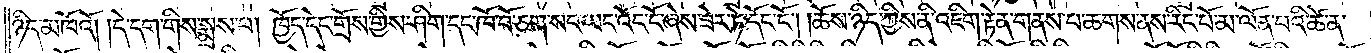ཉིད་མཁོའོ། །དེ་དག་གིས་སྨྲས་པ། ཁྱོད་དེང་གྲོས་ཀྱིས་ཤིག་དང་ཁོ་བོ་ཅག་སང་ཡང་འོང་ངོ་ཞེས་ཟེར་ཏེ་དོང་ངོ༌། །ཆོས་ཉིད་ཀྱིས་ནི་འཇིག་རྟེན་གནས་པ་ཆགས་ནས་རིང་པོ་མ་ལོན་པའི་ཚེ་ན་
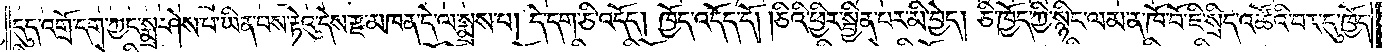དུད་འགྲོ་དག་ཀྱང་སྨྲ་ཤེས་པ་ཡིན་པས་རྟེའུ་དེས་རྫ་མཁན་དེ་ལ་སྨྲས་པ། དེ་དག་ཅི་འདོད། ཁྱོད་འདོད་དོ། །ཅིའི་ཕྱིར་སྦྱིན་པར་མི་བྱེད། ཅི་ཁྱོད་ཀྱི་སྙིང་ལམ་ན་ཁོ་བོ་ཇི་སྲིད་འཚོའི་བར་དུ་ཁྱོད་
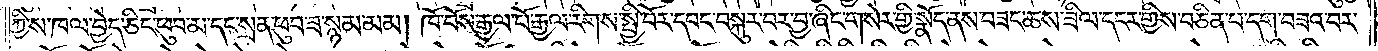ཀྱིས་ཁལ་བྱེད་ཅིང་ཕུབ་མ་དང་སྲན་ཕུབ་ཟ་སྙམ་མམ། ཁོ་བོས་རྒྱལ་པོ་རྒྱལ་རིགས་སྤྱི་བོར་དབང་བསྐུར་བར་བྱ་ཞིང་གསེར་གྱི་སྣོད་ནས་བཟང་ཆས་ཟིལ་དངར་གྱིས་བཅིན་པ་དག་བཟའ་བར་
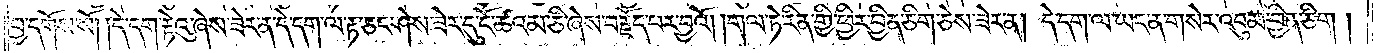བྱ་དགོས་སོ། །དེ་དག་རྟེའུ་ཞེས་ཟེར་ན་དེ་དག་ལ་རྟ་ཅང་ཤེས་ཟེར་དུ་ངོ་ཚའམ་ཅི་ཞེས་བརྗོད་པར་བྱའོ། །གལ་ཏེ་རིན་གྱི་ཕྱིར་བྱིན་ཅིག་ཅེས་ཟེར་ན། དེ་དག་ལ་ཡང་ན་གསེར་འབུམ་བྱིན་ཅིག །
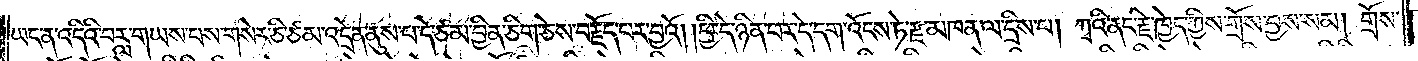ཡང་ན་འདིའི་བརླ་གཡས་པས་གསེར་ཅི་ཙམ་འདྲེན་ནུས་པ་དེ་ཙམ་བྱིན་ཅིག་ཅེས་བརྗོད་པར་བྱའོ། །ཕྱི་དེ་ཉིན་པར་དེ་དག་འོངས་ཏེ་རྫ་མཁན་ལ་དྲིས་པ། ཀྭའི་ནང་རྗེ་ཁྱེད་ཀྱིས་གྲོས་བྱས་སམ། གྲོས་
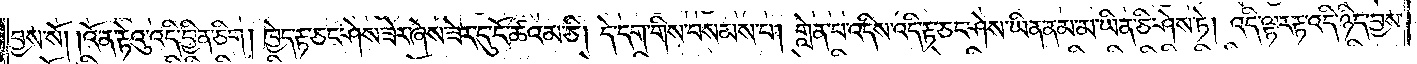བྱས་སོ། །འོ་ན་རྟེའུ་འདི་བྱིན་ཅིག །ཁྱེད་རྟ་ཅང་ཤེས་ཟེར་ཞེས་ཟེར་དུ་ངོ་ཚའམ་ཅི། དེ་དག་གིས་བསམས་པ། གླེན་པ་འདིས་འདི་རྟ་ཅང་ཤེས་ཡིན་ནམ་མ་ཡིན་ཅི་ཤེས་ཏེ། འདི་ལྟར་རྟ་འདི་ཉིད་བྱས་
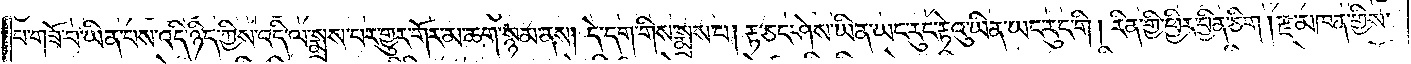པ་གཟོ་བ་ཡིན་པས་འདི་ཉིད་ཀྱིས་འདི་ལ་སྨྲས་པར་གྱུར་གོར་མ་ཆག་སྙམ་ནས། དེ་དག་གིས་སྨྲས་པ། རྟ་ཅང་ཤེས་ཡིན་ཡང་རུང་རྟེའུ་ཡིན་ཡང་རུང་གི། རིན་གྱི་ཕྱིར་བྱིན་ཅིག །རྫ་མཁན་གྱིས་
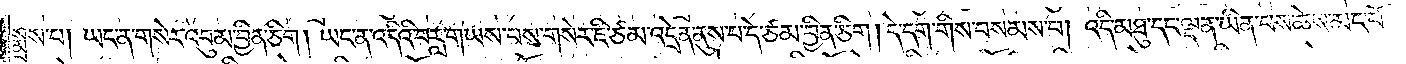སྨྲས་པ། ཡང་ན་གསེར་འབུམ་བྱིན་ཅིག །ཡང་ན་འདིའི་བརླ་གཡས་པས་གསེར་ཇི་ཙམ་འདྲེན་ནུས་པ་དེ་ཙམ་བྱིན་ཅིག །དེ་དག་གིས་བསམས་པ། འདི་མཐུ་དང་ལྡན་ཡིན་པས་ཆེས་མང་པོ་
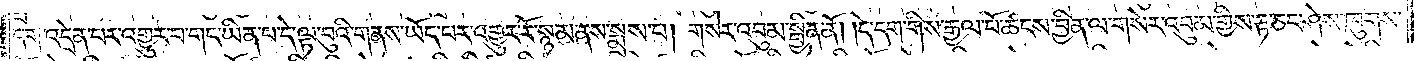དག་འདྲེན་པར་འགྱུར་པ་གང་ཡིན་པ་དེ་ལྟ་བུའི་གནས་ཡོད་པར་འགྱུར་རོ་སྙམ་ནས་སྨྲས་པ། གསེར་འབུམ་སྦྱིན་ནོ། །དེ་དག་གིས་རྒྱལ་པོ་ཚངས་བྱིན་ལ་གསེར་འབུམ་གྱིས་རྟ་ཅང་ཤེས་ཁུགས་
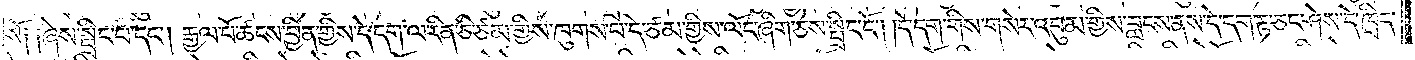སོ༑ ༑ཞེས་སྤྲིང་པ་དང༌། རྒྱལ་པོ་ཚངས་བྱིན་གྱིས་དེ་དག་ལ་རིན་ཅི་ཙམ་གྱིས་ཁུགས་པ་དེ་ཙམ་གྱིས་ལོང་ཞིག་ཅེས་སྤྲིང་ངོ༌། །དེ་དག་གིས་གསེར་འབུམ་གྱིས་བླངས་ནས་དེ་དག་རྟ་ཅང་ཤེས་དེ་ཁྲིད་
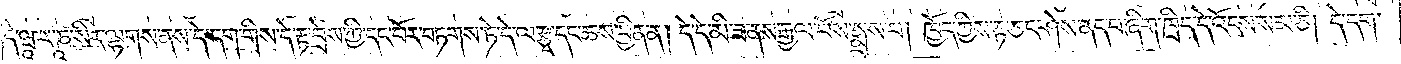དེ་ཝཱ་ར་ཎཱ་སིར་ལྷགས་ནས་དེ་དག་གིས་དེ་རྟ་བྲེས་ཀྱི་དང་པོར་བཏགས་ཏེ་དེ་ལ་རྩྭ་དང་ཆས་བྱིན་ན། དེ་དེ་མི་ཟ་ནས་རྒྱལ་པོས་སྨྲས་པ། ཁྱོད་ཀྱིས་རྟ་ཅང་ཤེས་ནད་པ་ཞིག་ཁྲིད་དེ་འོངས་སམ་ཅི། དེ་དག་
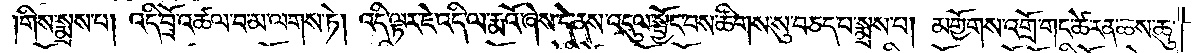གིས་སྨྲས་པ། འདི་བྲོ་འཆལ་བ་མ་ལགས་ཏེ། འདི་ལྟར་ཇེ་འདི་ལ་རྨའོ་ཞེས་དེ་ནས་འདུལ་སྦྱོང་བས་ཚིགས་སུ་བཅད་པ་སྨྲས་པ། མགྱོགས་འགྲོ་གང་ཚེ་རན་ཆས་ཆུ་
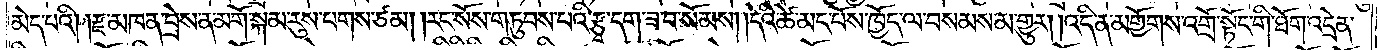མེད་པའི། །རྫ་མཁན་བྲེས་ན་མགོ་སྐམ་རུས་པགས་ཙམ། །རང་སོས་གཏུབས་པའི་རྩྭ་དག་ཟ་བ་སོམས། །དེའི་ཚེ་མང་པོས་ཁྱོད་ལ་བསམས་མ་གྱུར། །འདི་ན་མགྱོགས་འགྲོ་སྟོང་གི་ཐོགས་འདྲེན་
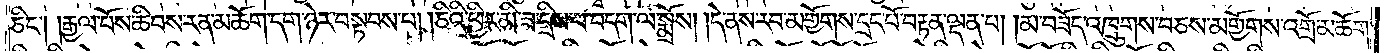ཅིང༌། །རྒྱལ་པོས་ཆིབས་རན་མཆོག་དག་ཉེར་བསྟབས་པ། །ཅིའི་ཕྱིར་མི་ཟ་དྲིས་པ་བདག་ལ་སྨྲོས། །དེ་ནས་རབ་མགྱོགས་དྲང་པོ་བརྟན་ལྡན་པ། །མ་བཟོད་འཁྲུགས་བཅས་མགྱོགས་འགྲོ་མཆོག་
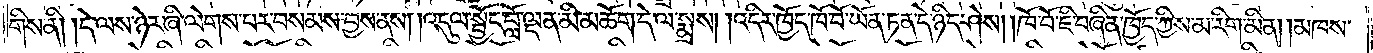གིས་ནི། །དེ་ལས་ཉེར་ཞི་ལེགས་པར་བསམས་བྱས་ནས། །འདུལ་སྦྱོང་བློ་ལྡན་མི་མཆོག་དེ་ལ་སྨྲས། །འདིར་ཁྱོད་ཁོ་བོ་ཡོན་ཏན་དེ་ཉིད་ཤེས། །ཁོ་བོ་ཇི་བཞིན་ཁྱོད་ཀྱིས་མ་རིག་མིན། །མཁས་
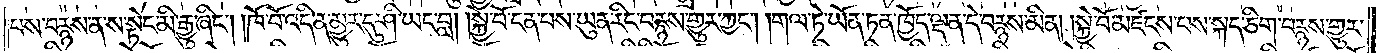པས་བརྙས་ན་ས་སྟེང་མི་རྒྱུ་ཞིང༌། །ཁོ་བོ་འདི་ན་མྱུར་དུ་ཤི་ཡང་བླ། །སྐྱེ་བོ་ངན་པས་ཡུན་རིང་བརྙས་གྱུར་ཀྱང༌། །གལ་ཏེ་ཡོན་ཏན་ཁྱོད་ལྡན་དེ་བརྙས་མིན། །སྐྱེ་བོ་མཛངས་པས་སྐད་ཅིག་བརྙས་གྱུར་
